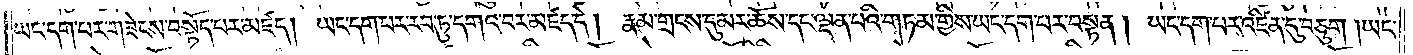ཡང་དག་པར་གཟེངས་བསྟོད་པར་མཛད། ཡང་དག་པར་རབ་ཏུ་དགའ་བར་མཛད་དེ། རྣམ་གྲངས་དུ་མར་ཆོས་དང་ལྡན་པའི་གཏམ་གྱིས་ཡང་དག་པར་བསྟན། ཡང་དག་པར་འཛིན་དུ་བཅུག །ཡང་
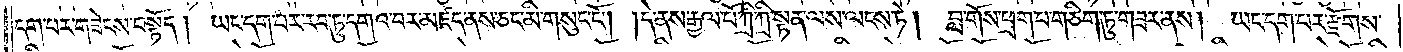དག་པར་གཟེངས་བསྟོད། ཡང་དག་པར་རབ་ཏུ་དགའ་བར་མཛད་ནས་ཅང་མི་གསུང་ངོ༌། །དེ་ནས་རྒྱལ་པོ་ཀྲི་ཀྲི་སྟན་ལས་ལངས་ཏེ། བླ་གོས་ཕྲག་པ་གཅིག་ཏུ་གཟར་ནས། ཡང་དག་པར་རྫོགས་
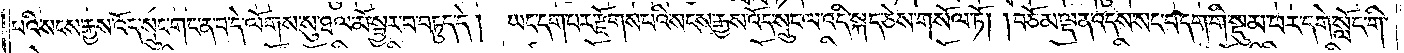པའི་སངས་རྒྱས་འོད་སྲུང་གང་ན་བ་དེ་ལོགས་སུ་ཐལ་མོ་སྦྱར་བ་བཏུད་དེ། ཡང་དག་པར་རྫོགས་པའི་སངས་རྒྱས་འོད་སྲུང་ལ་འདི་སྐད་ཅེས་གསོལ་ཏོ། །བཅོམ་ལྡན་འདས་སང་བདག་གི་སྡུམ་པར་དགེ་སློང་གི་
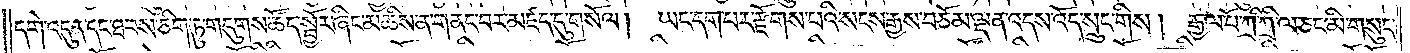དགེ་འདུན་དང་ཐབས་ཅིག་ཏུ་གདུགས་ཚོད་སྦྱོར་ཞིང་མཆིས་ན་གནང་བར་མཛད་དུ་གསོལ། ཡང་དག་པར་རྫོགས་པའི་སངས་རྒྱས་བཅོམ་ལྡན་འདས་འོད་སྲུང་གིས། རྒྱལ་པོ་ཀྲི་ཀྲི་ལ་ཅང་མི་གསུང་
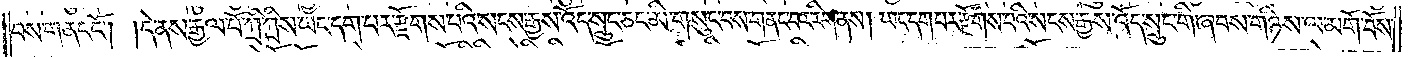བས་གནང་ངོ༌། །དེ་ནས་རྒྱལ་པོ་ཀྲི་ཀྲིས་ཡང་དག་པར་རྫོགས་པའི་སངས་རྒྱས་འོད་སྲུང་ཅང་མི་གསུང་བས་གནང་བར་རིག་ནས། ཡང་དག་པར་རྫོགས་པའི་སངས་རྒྱས་འོད་སྲུང་གི་ཞབས་གཉིས་ལ་མགོ་བོས་
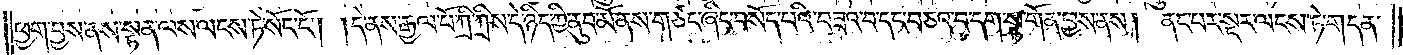ཕྱག་བྱས་ནས་སྟན་ལས་ལངས་ཏེ་སོང་ངོ༌། །དེ་ནས་རྒྱལ་པོ་ཀྲི་ཀྲིས་དེ་ཉིད་ཀྱི་ནུབ་མོ་ནས་གཙང་ཞིང་བསོད་པའི་བཟའ་བ་དང་བཅའ་བ་དག་སྟ་གོན་བྱས་ནས། ནང་པར་སྔར་ལངས་ཏེ་གདན་
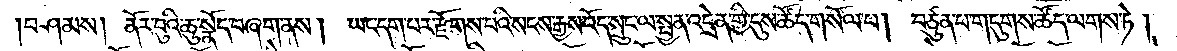།བཤམས། ནོར་བུའི་ཆུ་སྣོད་བཞག་ནས།  ཡང་དག་པར་རྫོགས་པའི་སངས་རྒྱས་འོད་སྲུང་ལ་སྤྱན་འདྲེན་གྱི་དུས་ཚོད་གསོལ་པ། བཙུན་པ་གདུགས་ཚོད་ལགས་ཏེ།
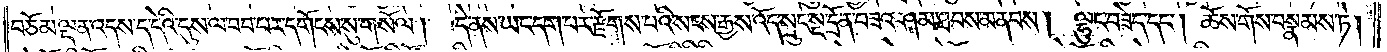བཅོམ་ལྡན་འདས་ད་དེའི་དུས་ལ་བབ་པར་དགོངས་སུ་གསོལ། དེ་ནས་ཡང་དག་པར་རྫོགས་པའི་སངས་རྒྱས་འོད་སྲུང་སྔ་དྲོ་ན་བཟའ་ཤམ་ཐབས་མནབས། ལྷུང་བཟེད་དང༌། ཆོས་གོས་བསྣམས་ཏེ།
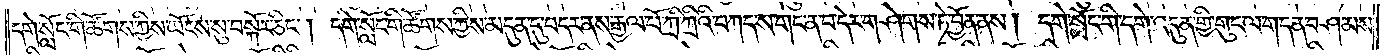དགེ་སློང་གི་ཚོགས་ཀྱིས་ཡོངས་སུ་བསྐོར་ཅིང༌། དགེ་སློང་གི་ཚོགས་ཀྱིས་མདུན་དུ་བདར་ནས་རྒྱལ་པོ་ཀྲི་ཀྲིའི་བཀད་ས་གང་ན་བ་དེར་གཤེགས་ཏེ་བྱོན་ནས། དགེ་སློང་གི་དགེ་འདུན་གྱི་གུང་ལ་གདན་བཤམས་
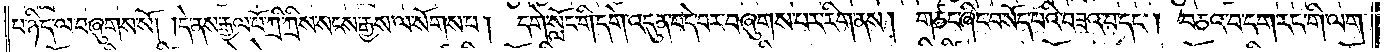པ་ཉིད་ལ་བཞུགས་སོ། །དེ་ནས་རྒྱལ་པོ་ཀྲི་ཀྲིས་སངས་རྒྱས་ལ་སོགས་པ། དགེ་སློང་གི་དགེ་འདུན་བདེ་བར་བཞུགས་པར་རིག་ནས། གཙང་ཞིང་བསོད་པའི་བཟའ་བ་དང༌། བཅའ་བ་དག་རང་གི་ལག་
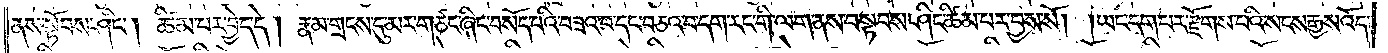ནས་སྟོབས་ཤིང༌། ཚིམ་པར་བྱེད་དེ། རྣམ་གྲངས་དུ་མར་གཙང་ཞིང་བསོད་པའི་བཟའ་བ་དང་བཅའ་བ་དག་རང་གི་ལག་ནས་བསྟབས་ཤིང་ཚིམ་པར་བྱས་སོ། །ཡང་དག་པར་རྫོགས་པའི་སངས་རྒྱས་འོད་
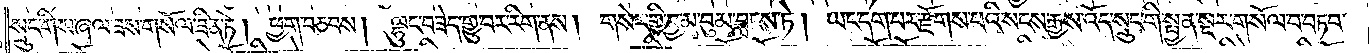སྲུང་གིས་ཞལ་ཟས་གསོལ་ཟིན་ཏེ། ཕྱག་བཅབས། ལྷུང་བཟེད་གྱུ་བར་རིག་ནས། གསེར་གྱི་བྱ་མ་བུམ་བླངས་ཏེ། ཡང་དག་པར་རྫོགས་པའི་སངས་རྒྱས་འོད་སྲུང་གི་སྤྱན་སྔར་གསོལ་བ་བཏབ་
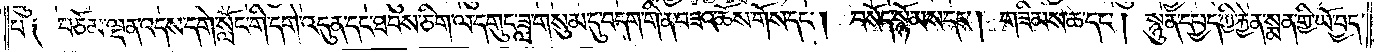པ༑ བཅོམ་ལྡན་འདས་དགེ་སློང་གི་དགེ་འདུན་དང་ཐབས་ཅིག་ལ་དགུང་ཟླ་གསུམ་དུ་བདག་གི་ན་བཟའ་ཆོས་གོས་དང༌། བསོད་སྙོམས་དང༌། གཟིམས་ཆ་དང༌། སྙུན་དཔྱད་ཀྱི་རྐྱེན་སྨན་གྱི་ཡོ་བྱད་
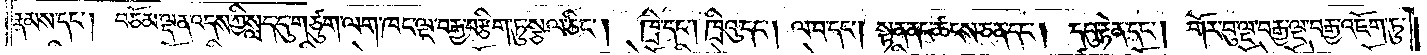རྣམས་དང༌། བཅོམ་ལྡན་འདས་ཀྱི་སླད་དུ་གཙུག་ལག་ཁང་ལྔ་བརྒྱ་བརྩིག་ཏུ་སྩལ་ཅིང༌། ཁྲི་དང་ཁྲིའུ་དང༌། ལ་བ་དང༌། སྟན་ནང་ཚངས་ཅན་དང༌། དབུ་རྟེན་དང༌། གོར་བུ་ལྔ་བརྒྱ་ལྔ་བརྒྱ་འཇོག་ཏུ་
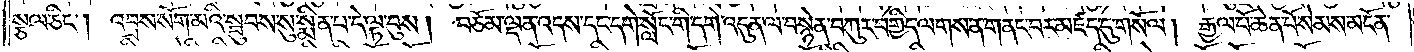སྩལ་ཅིང༌། འབྲས་སོག་མའི་སྦུབས་སུ་སྨིན་པ་དེ་ལྟ་བུས། བཅོམ་ལྡན་འདས་དང་དགེ་སློང་གི་དགེ་འདུན་ལ་བསྙེན་བཀུར་བགྱིད་ལགས་ན་གནང་བར་མཛད་དུ་གསོལ། རྒྱལ་པོ་ཆེན་པོ་སེམས་མངོན་
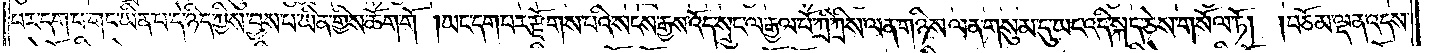པར་དག་པ་གང་ཡིན་པ་དེ་ཉིད་ཀྱིས་བྱས་པ་ཡིན་གྱིས་ཆོག་གོ །ཡང་དག་པར་རྫོགས་པའི་སངས་རྒྱས་འོད་སྲུང་ལ་རྒྱལ་པོ་ཀྲི་ཀྲིས་ལན་གཉིས་ལན་གསུམ་དུ་ཡང་འདི་སྐད་ཅེས་གསོལ་ཏོ། །བཅོམ་ལྡན་འདས་
